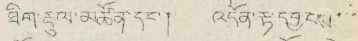ཐིག་རྡུལ་མཚོན་དང་། འདོན་རྟ་དབྱངས་་་
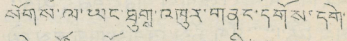སོགས་ལ་ཡང་ཐུགས་འཁུར་གནང་དགོས་དགེ་
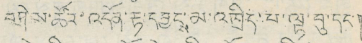བཤེས་ཚོར་འདོན་རྟ་དབྱངྶ་མ་འཁྲིད་པ་ལྟ་བུ་དང་།
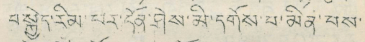བསྐྱེད་རིམ་པར་དོན་ཤེས་མི་དགོས་པ་མིན་པས་
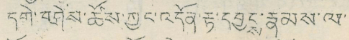དགེ་བཤེས་ཚོས་ཀྱང་འདོན་རྟ་དབྱངྶ་རྣམས་ལ་
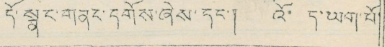དོ་སྒང་གནང་དགོས་ཞེས་དང་། འོ་ད་ཡག་པོ།
